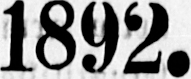1892.
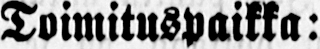Toimituspaikka:
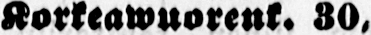Korkeawuorenk. 30,
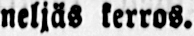neljäs kerros.
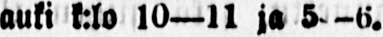auki k:lo 10—11 ja 5—6.
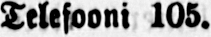Telefooni 105.
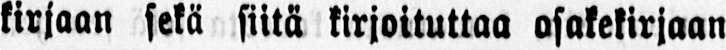kirjaan sekä siitä kirjoituttaa osakekirjaan
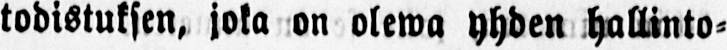todistuksen, joka on olewa yhden hallinto-
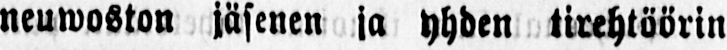neuwoston jäsenen ja yhden tirehtöörin
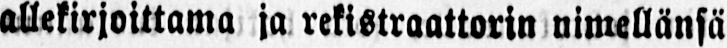allekirjoittama ja rekistraattorin nimellänsä
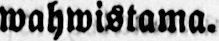wahwistama.
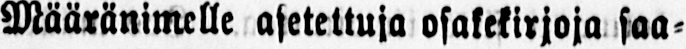Määränimelle asetettuja osakekirjoja saa-
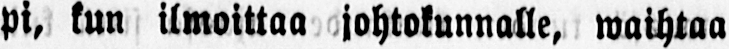pi, kun ilmoittaa johtokunnalle, waihtaa
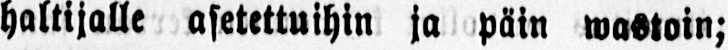haltijalle asetettuihin ja päin wastoin;
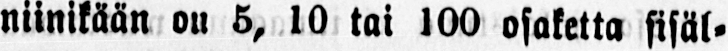niinikään on 5, 10 tai 100 osaketta sisäl-
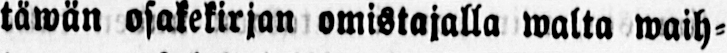täwän osakekirjan omistajalla walta waih-
